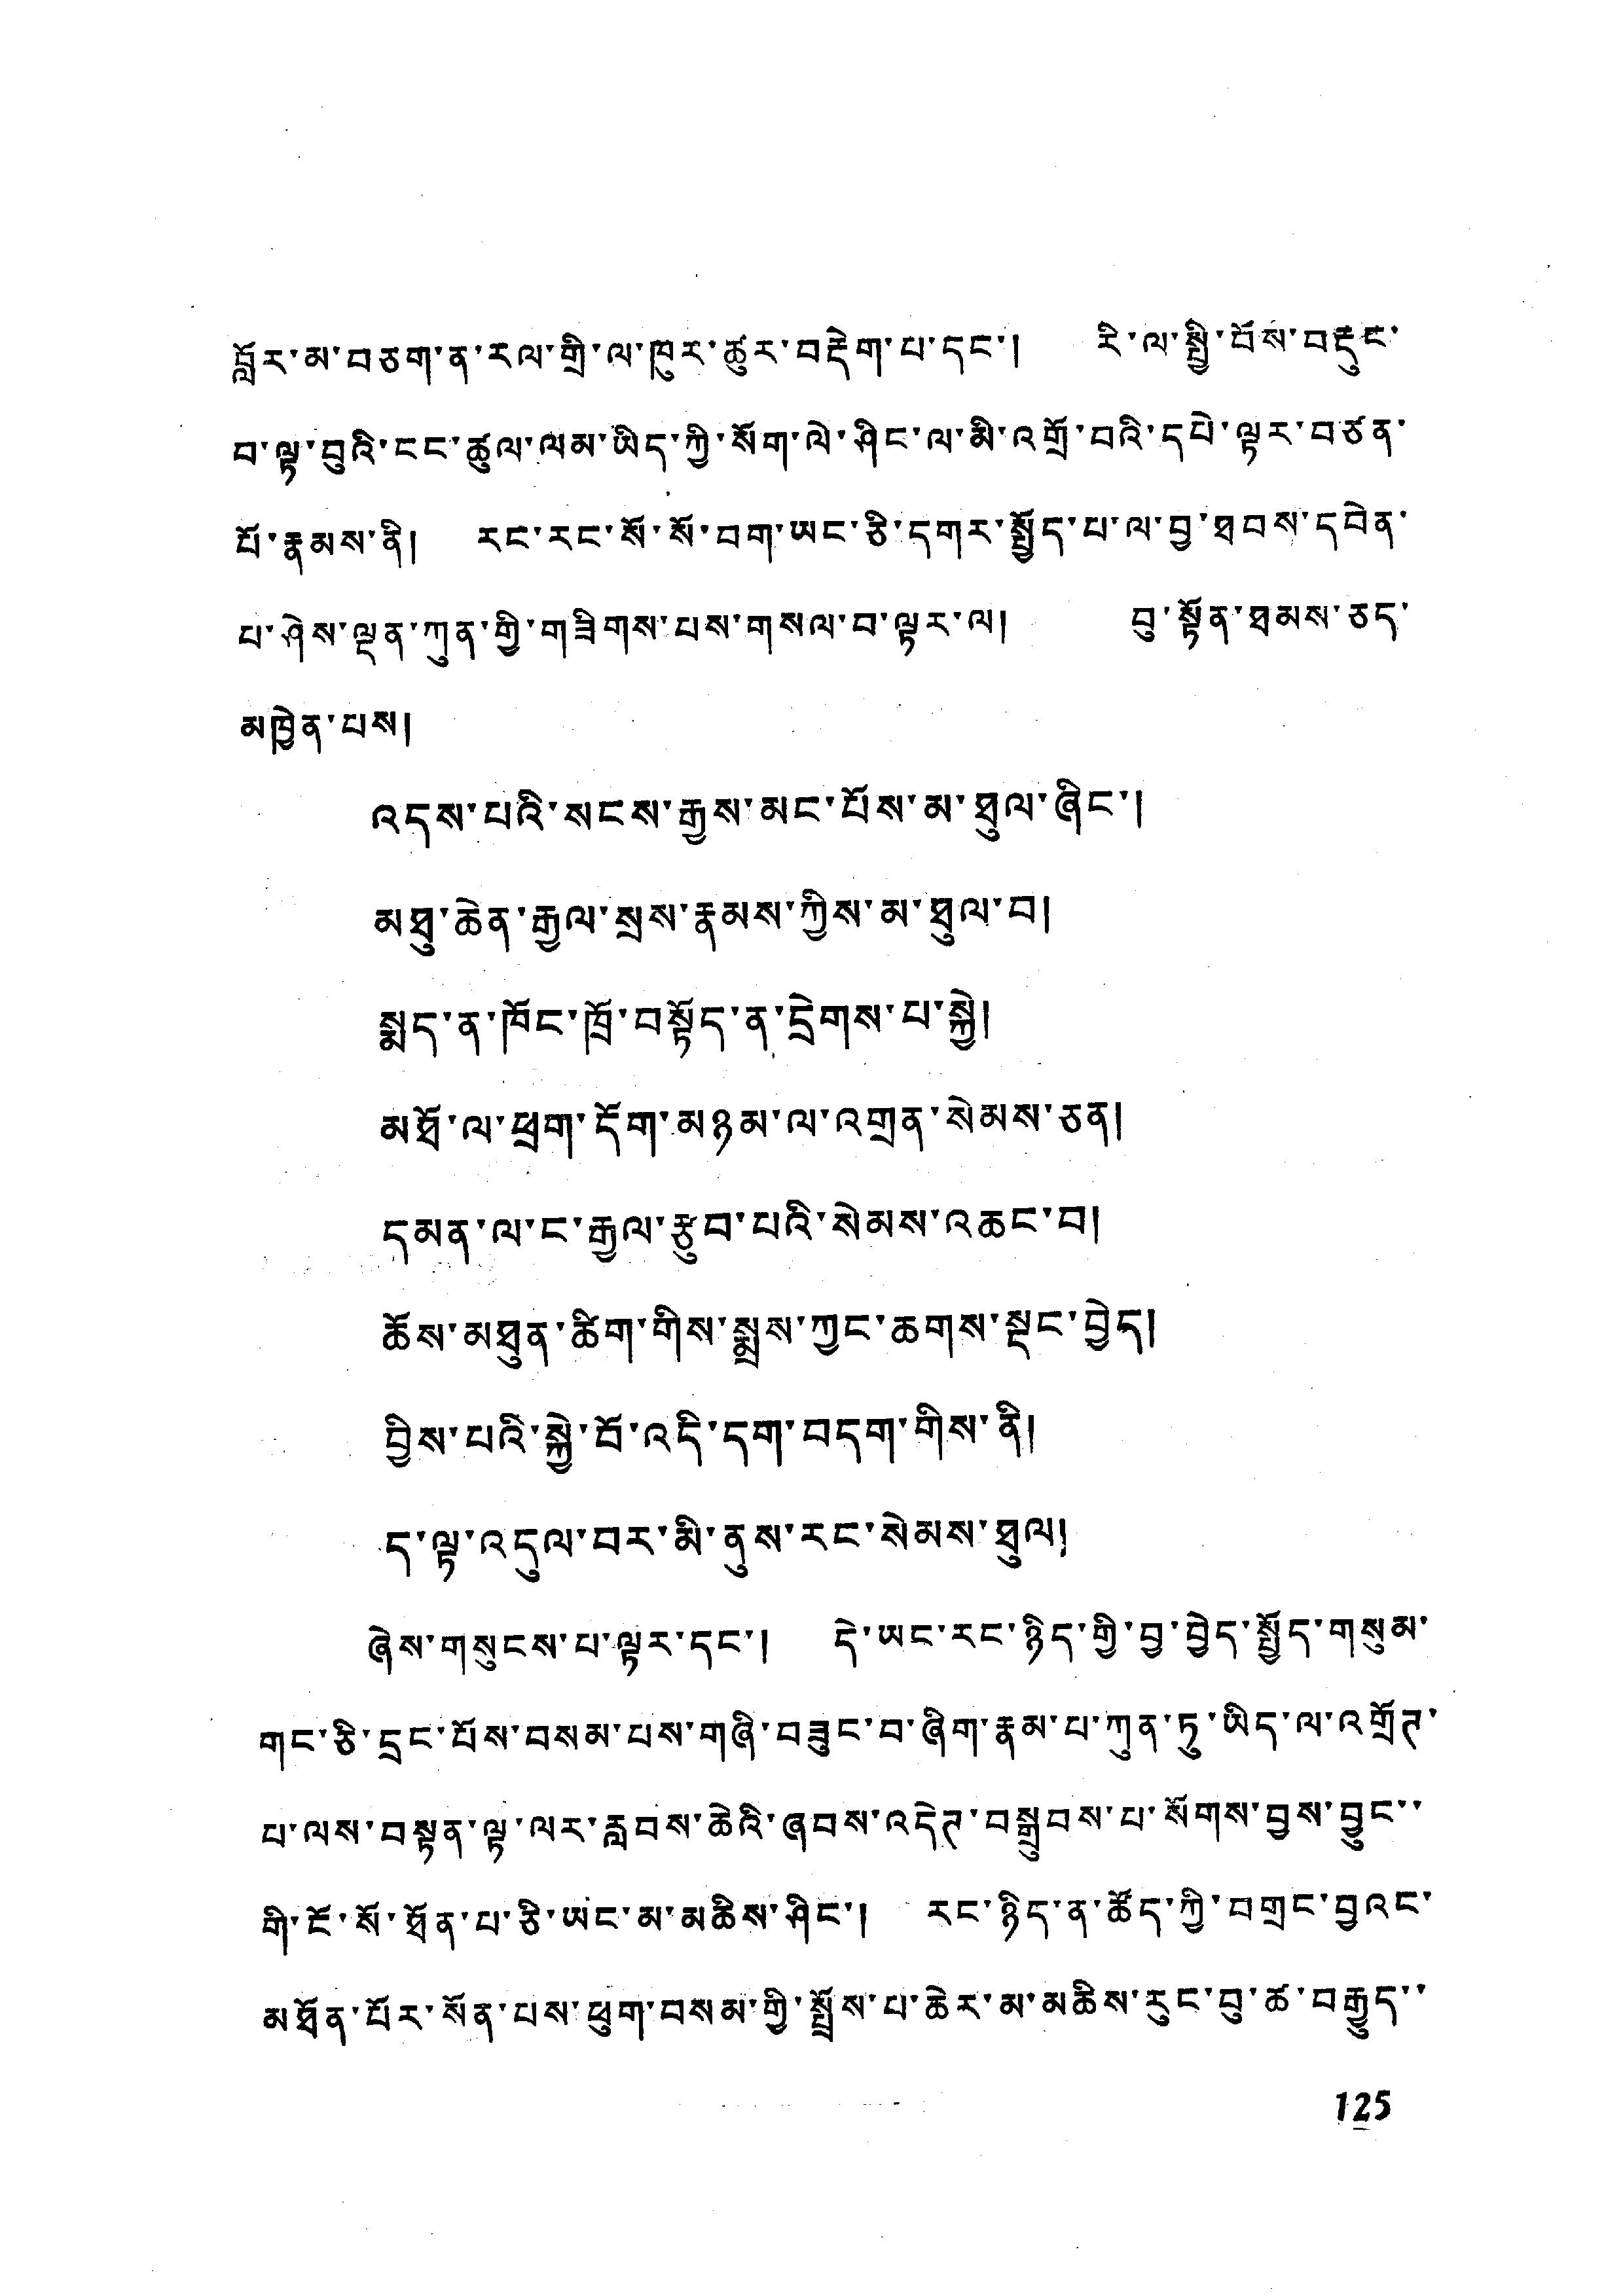བློར་མ་བཅག་ན་རལ་གྱི་ལ་ཁུར་ཚུར་བརྡེག་པ་དང་། རི་ལ་སྤྱི་བོས་བརྡུང་
བ་ལྟ་བུའི་ངང་ཚུལ་ལམ་ཡིད་ཀྱི་སོག་ལེ་ཤིང་ལ་མི་འགྲོ་བའི་དཔེ་ལྟར་བཙན་
པོ་རྣམས་ནི། རང་རང་སོ་སོ་བག་ཡང་ཅི་དགར་སྤྱོད་པ་ལ་བྱ་ཐབས་དབེན་
པ་ཤེས་ལྡན་ཀུན་གྱི་གཟིགས་པས་གསལ་བ་ལྟར་ལ། བུ་སྟོན་ཐམས་ཅད་
མཁྱེན་པས།
འདུས་པའི་སངས་རྒྱས་མང་པོས་མ་ཐུལ་ཞིང་།
མཐུ་ཆེན་རྒྱལ་སྲས་རྣམས་ཀྱིས་མ་ཐུལ་བ།
སྨད་ན་ཁོང་ཁྲོ་བསྟོད་ན་དྲེགས་པ་སྐྱེ།
མཐོ་ལ་ཕྲག་དོག་མཉམ་ལ་འགྲན་སེམས་ཅན།
དམན་ལ་ང་རྒྱལ་རྩུབ་པའི་སེམས་འཆང་བ།
ཆོས་མཐུན་ཚིག་གིས་སྨྲས་ཀྱང་ཆགས་སྡང་བྱེད།
བྱིས་པའི་སྐྱེ་བོ་འདི་དག་བདག་གིས་ནི།
ད་ལྟ་འདུལ་བར་མི་ནུས་རང་སེམས་ཐུལ།
ཞེས་གསུངས་པ་ལྟར་དང་། དེ་ཡང་རང་ཉིད་གྱི་བྱ་བྱེད་སྤྱོད་གསུམ་
གང་ཅི་དྲང་པོས་བསམ་པས་གཞི་བཟུང་བ་ཞིག་རྣམ་པ་ཀུན་ཏུ་ཡིད་ལ་འགྲོཊ་
པ་ལས་བསྟན་ལྷ་ལར་རླབས་ཆེའི་ཞབས་འདེཊ་བསྒྲུབས་པ་སོགས་བྱས་བྱུང་་
གི་ངོ་སོ་ཐོན་པ་ཅི་ཡང་མ་མཆིས་ཤིང་། རང་ཉིད་ན་ཚོད་ཀྱི་བགྲང་བྱའང་
མཐོན་པོར་སོན་པས་ཕུག་བསམ་གྱི་སྤྲོས་པ་ཆེར་མ་མཆིས་རུང་བུ་ཚ་བརྒྱུད་་
125
